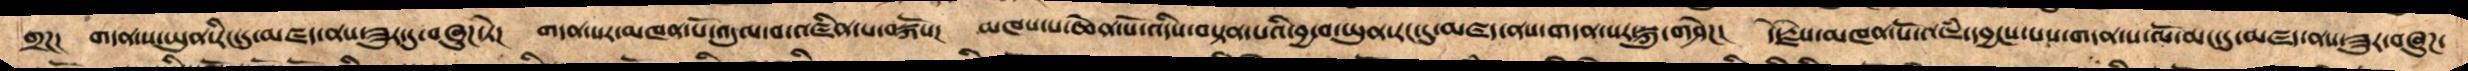གྲཌ།  གདན་ས་ཡུན་རིང་དུ་མཛད་ནས་ཟུར་དུ་བཞུཌ་ཏེ།  གདན་སར་མཁན་པོ་འདུལ་བ་འཛིན་པ་བསྐོས།  མཁས་པ་ཆེན་པོ་འདིས་བསྟན་པའི་བྱ་བ་ཡུན་རང་དུ་མཛད་ནས་གདན་སར་སྐུ་གཤེཌ།   དེ་རྗེས་མཁན་པོ་འཇཾ་དབྱངས་པས་གདན་ས་ལོ་མང་དུ་མཛད་ནས་ཟུར་བཞུཌ་
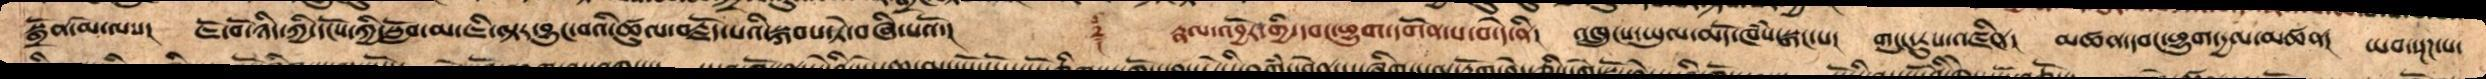སྒྲོན་མེ་ལས།  ཇོ་བོ་ཉིད་ཀྱི་དངོས་ཀྱི་སློབ་མ་ཇི་ལྟར་བྱུང་བའི་ཚུལ་བརྗོད་པའི་སྐབས་ཏེ་བཞི་པའོ།   ༈   རྣལ་འབྱོར་གྱི་དབང་ཕྱུག་དགོན་པ་བ་དེ་ནི།   འཁྲུངས་ཡུལ་མདོ་ཁཾས་སྒང་པ།    གདུང་རུས་འཛིན།   མཚན་དབང་ཕྱུག་དྱལ་མཚན། ཡབ་སྔཌ་པ་
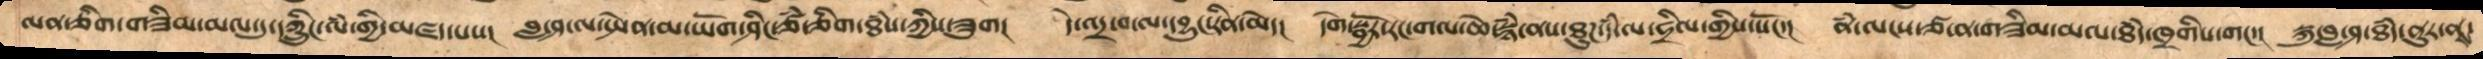ལན་ཅིག་གཟིམ་མལ་དུ་དཀྲིུང་ལཾ་གྱི་མཛད་པས།   བླ་ཤ་ལ་སྤེན་མ་ཡོག་ཤིང་ཙཾ་ཅིག་ཐཾས་ཀྱིས་ཟུག།   དེ་འདྲ་བ་ལ་དབྱུང་རིན་མེད།   དགེ་སྦྱོར་རང་གལ་ཆེ་སྙཾ་ནས་ཐུཌ་དཾ་ལ་ཧྲིལ་གྱིས་སོང་།   ནཾ་ལངས་ཙ་ན་གཟིམ་མལ་ཐཾད་ཁྲགིས་གང་།   སྐུ་བླ་ཤ་ཐཾད་ནུར་ནས་
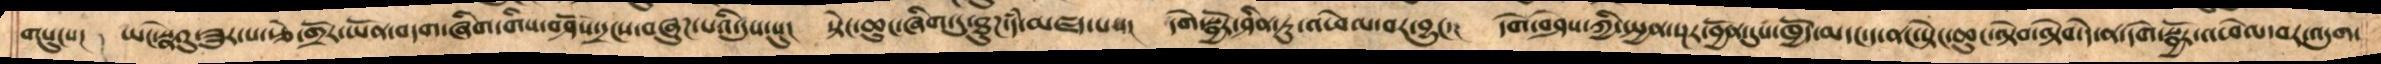གསུངས།  ཡང་སྣེའུ་ཟུར་པ་རྩེ་གྲོར་ཡོན་བདག་ཞིག་གིས་བཤོས་དྲངས་བཞུཌ་པའི་དུས་སུ།   སྟེང་ཆུང་ཞིག་དུ་ཐུཌ་དཾ་མཛད་པས་།   དགེ་སྦྱོར་ཤིན་ཏུ་འཕེལ་བར་བྱུང་།   དགེ་བཤེས་ཀྱི་སྤྱན་སྔར་བྱོན་དུས་ཁྱོད་མདང་ད་ནང་སྟེང་ཆུང་ལྟེབ་ལྟེབ་དེ་ན་དགེ་སྦྱོར་འཕེལ་བར་འདུག་
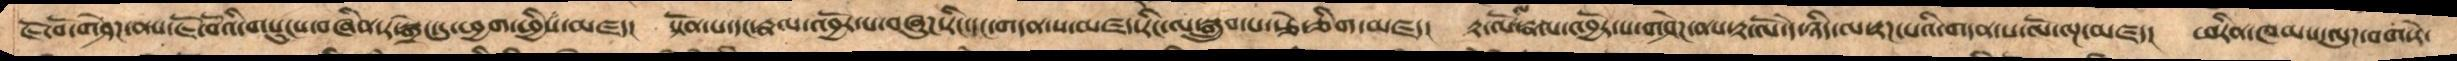ཇོ་བོ་གཤེཌ་ནས་ཇོ་བོའི་གསུང་བཞིན་ར་སྒྲེང་དུ་ཕྱག་ཕྱིས་མཛད།   སྟོན་པ་དང་རྣལ་འབྱོར་པ་བཞུཌ་རིང་དང་གདན་ས་མཛད་རིང་ལ་སྒྲུབ་པ་རྩེ་ཅིག་མཛད།    རྟ་ལོ་ལ་རྣལ་འབྱོར་པ་གཤེཌ་ནས་རྟ་ལོ་དེ་ཉིད་ལ་རྟཌ་པའི་གདན་ས་ལོ་ལྔ་མཛད།   ཕརིན་ཁམས་ལུཌ་བག་རེ་
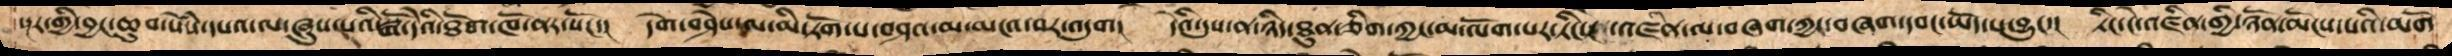སྔར་གྱི་བྱང་ཆུབ་སེཾས་དཔའ་ལ་ཞུས་པའི་སྒོ་དེའི་ཐོག་ཁོ་ནར་སོང་།   དགེ་བཤེས་ལ་མི་རོག་པ་བཤའ་མ་མངའ་བར་འདུག།  དེའི་དུས་ན་ཉིད་ཐུན་ཅིག་ཀྱང་མ་ལོག་པར་ཏིང་  འཛིན་ལ་བཞག་ཀྱང་བཞག་དབང་ཡོད་པ་བྱུང་།   ཏིང་ངེ་འཛིན་གྱི་ཉོན་མོངས་པའི་མགོ
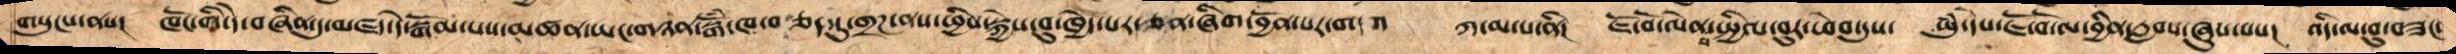གསུངས་ནས།  ཁོང་གི་དེ་བཞིན་དུ་མཛད་དེ་སྒོམ་པས་མཚན་ཡང་གཉན་སྒོཾ་ཁ་བ ཅད་དུ་གྲཌ་ནས་ཕྱིས་སྐྱེས་བུ་ཁྱེད་པར་ཅན་ཞིག་བྱོན་པར་གདའ་  ཀ་མ་པ་ནི།  ཇོ་བོ་ལེན་པ་སྤྱིལ་བུར་ཕེབ་དུས།  ཡུཾ་དེས་ཇོ་བོ་ལ་བྱིན་རླབས་ཞུས་པས།   འདི་ལ་བུ་བཟང་
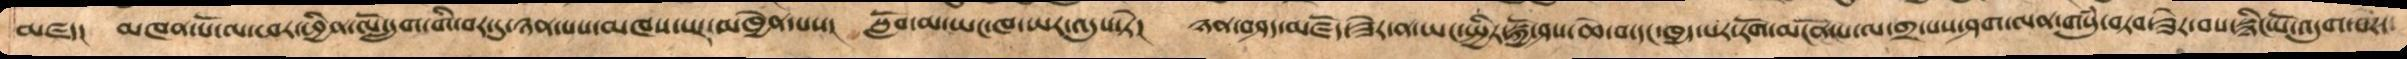མཛད།  མཁན་པོ་ལ་ཕར་ཕྱིན་ལོ་དྲུག་གི་བར་དུ་ཉན་པས་མཁས་པར་མཁྱེན་པས།   སློབ་མ་ཡང་ཁ་ཡར་འདུས་ཏེ།   ཉན་བཤད་མཛོད་ཟེར་ན་ཡང་སྤྱིར་སྐྱོ་ཤས་ཆེ་བ་དང་ཁྱད་པར་རོག་མངོན་པ་ལ་གྲ་པས་ཤག་ལན་གསུཾ་བཏབ་ཟེར་བས་སྙིང་པོ་འདུག་པར་
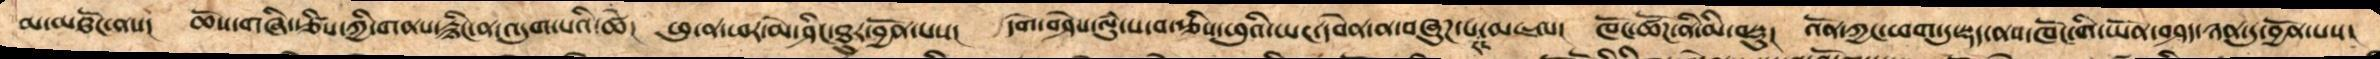མ་མཐོང་ནས།  ཆོས་གཞི་རྩིས་ཀྱི་གནས་རྙིང་ན་འདུག་པའི་ཚེ།   ཕུ་ན་ཕར་མེ་ཤིང་ཐུར་བྱོན་པས།   དགེ་བཤེས་ལུཾ་པ་བ་རྩིས་ཕུའི་ཡང་དབེན་ན་བཞུཌ་པར་མཇལ།  ཁོང་ཚོཌ་ནི་མི་བསྡུ།   འོན་ཀྱང་ཕག་དུ་སྡད་ནས་ཁོང་གི་ཡོན་བཤད་ཉན་དུ་བྱོན་པས།
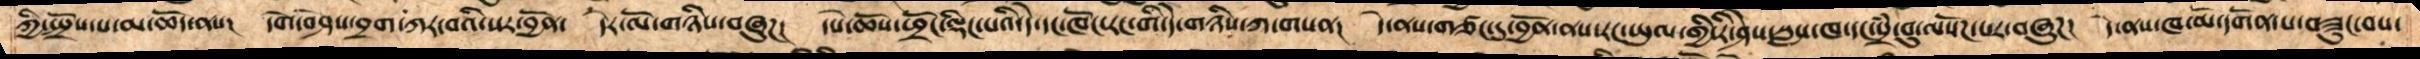ཀྱི་སྤྲོས་པ་མ་ཆོད་ནས།   དགེ་བཤེས་བྲག་དཀར་བའི་སར་བྱོན།   དེར་ལོ་གཉིས་བཞུཌ།   དཔེ་ཆོས་ཕྲོང་ལྡིང་པའི་དེ་དང་ཁོང་རང་གི་དེ་གཉིས་ཀ་གསན།  དེ་ནས་གཙང་དུ་བྱོན་ནས་རང་ཡུལ་གྱི་རི་ཤེས་སླས་ཁ་དང་སྲཾ་བུ་ལསོཌ་པར་བཞུཌ།   དེ་ནས་ཁ་མོ་དགོན་པ་བཟུང་བས་
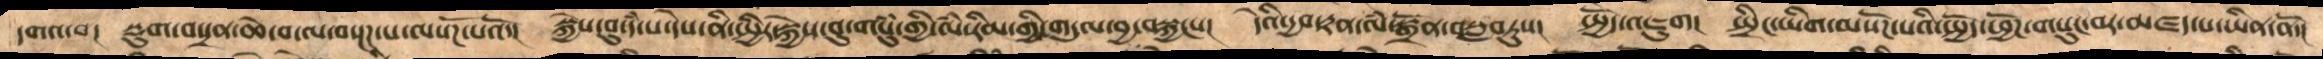དགའ་བ།   སྡུག་བསྲན་ཆེ་བ་ལ་བསྔཌ་པ་ལསོཌ་པའོ།   སྐྱེས་བུ་དཾ་པ་དེས་ནི་སྤྱིར་སྐྱེས་བུ་གསུཾ་གྱི་ལཾ་རིམ་གྱི་གདུལ་བྱ་བསྐྱངས།   དེའི་དྱབ་རྟན་ལཾ་སྒྲོན་བསླབཏུས།   སྤྱོད་འཇུག།   སྤྲིང་ཡིག་ལསོཌ་པའི་སྤྱོད་ཕྱོཌ་གསུང་བར་མཛད་པ་ཡིན་ནོ་།
